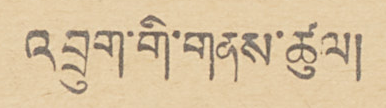འབྲུག་གི་གནས་ཚུལ།།
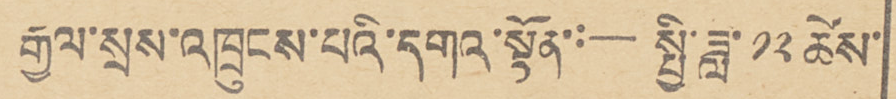རྒྱལ་སྲས་འཁྲུངས་པའི་དགའ་སྟོན་:— སྤྱི་ཟླ་ ༡༢ ཚེས་
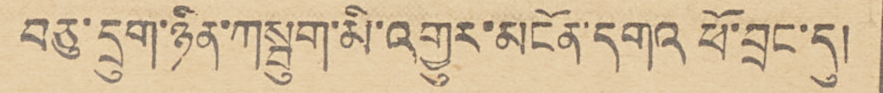བཅུ་དྲུག་ཉིན་ཀ སྦུག་མི་འགྱུར་མངོན་དགའ ཕོ་བྲང་དུ།
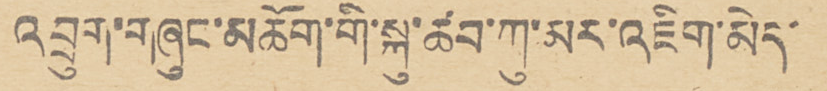འབྲུག་གཞུང་མཆོག་གི་སྐུ་ཚབ་ཀུ་མར་འཇིག་མེད་
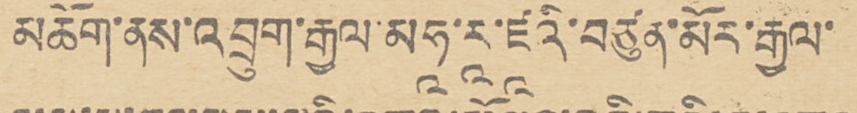མཆོག་ནས་འབྲུག་རྒྱལ་མ ཧཱ་རཱ་ཛཱའི་བཙུན་མོར་རྒྱལ་
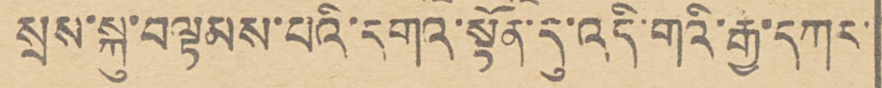སྲས་སྐུ་བལྟམས་པའི་དགའ་སྟོན་དུ་འདི་གའི་རྒྱ་དཀར་
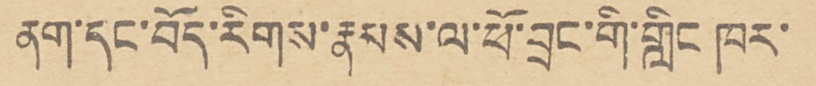ནག་དང་བོད་རིགས་རྣམས་ལ་ཕོ་བྲང་གི་གླིང ཁར་
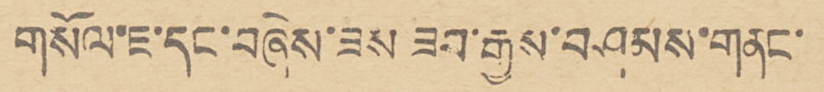གསོལ་ཇ་དང་བཞེས་ཟས ཟབ་རྒྱས་བཤམས་གནང་
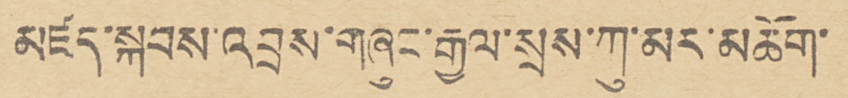མཛད་སྐབས་འབྲས་གཞུང་རྒྱལ་སྲས་ཀུ་མར་མཆོག་
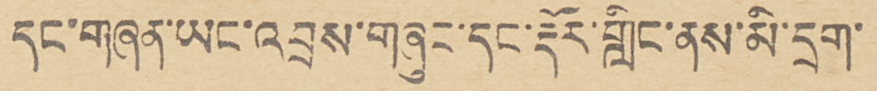དང་གཞན་ཡང་འབྲས་གཞུང་དང་རྡོར་གླིང་ནས་མི་དྲག་
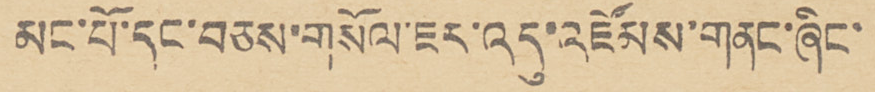མང་པོ་དང་བཅས་གསོལ་ཇར་འདུ་འཛོམས་གནང་ཞིང་
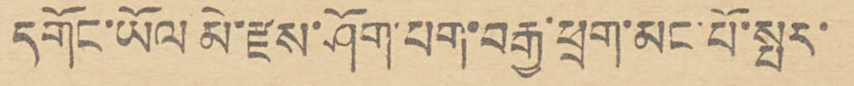དགོང་ཡོལ མེ་རྫས་ཤོག་པག་བརྒྱ་ཕྲག་མང་པོ་སྤར་
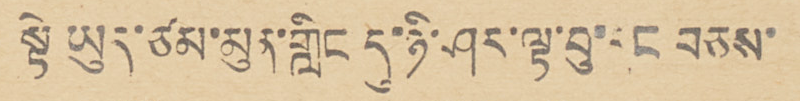སྟེ ཡུད་ཙམ་མུན་གླིང དུ་ཉི་ཤར་ལྟ་བུ་དང བཅས་
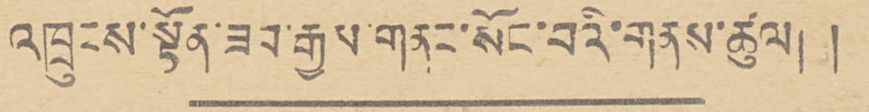འཁྲུངས་སྟོན་ཟབ་རྒྱས་གནང་སོང་བའི་གནས་ཚུལ།  །
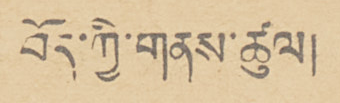བོད་ཀྱི་གནས་ཚུལ།
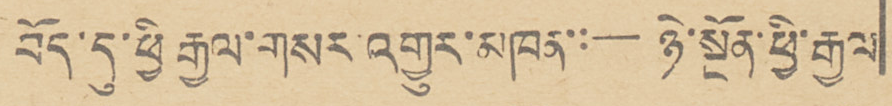བོད་དུ་ཕྱི རྒྱལ་གསར་འགྱུར་མཁན་:— ཉེ་སྔོན་ཕྱི་རྒྱལ
